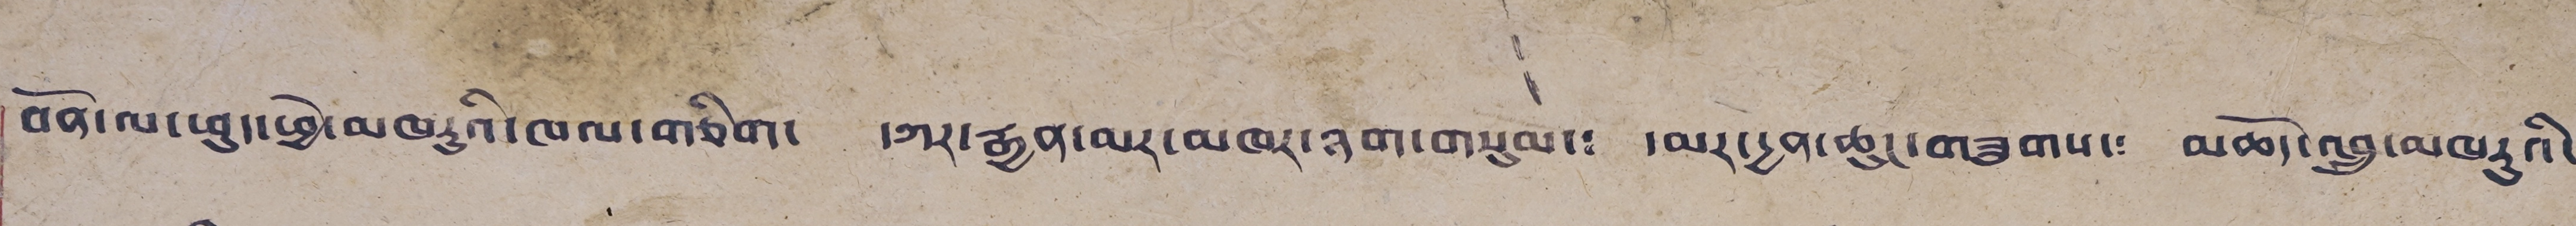བོན་ལ་ཕུད་ཕྱེ་མཁརུའི་ཁལ་གཅིག། དཀར་རྒྱན་མར་མཁར་ཉག་གསུམ་༴ དམར་དྱན་ཆུང་གཟུགས་༴ མཆོད་འབྲུ་མཁརུའི་
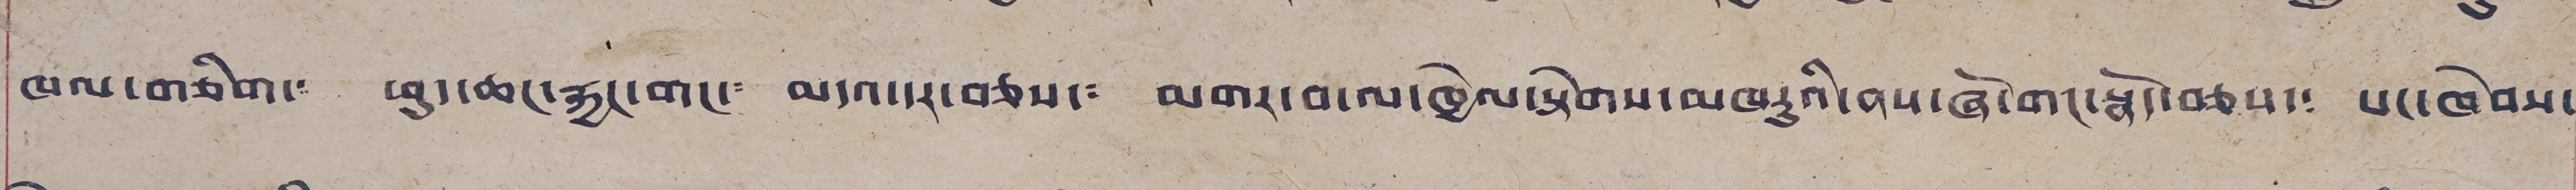ཁལ་གཅིག་༴ ཕུ་ཆང་རྐྱང་གང་༴ མདའ་དར་བཅས་༴ མགར་བ་ལ་ཁྱེལ་སྟེགས་མཁརུའི་ནས་ཞོ་གང་སྣོད་བཅས་༴ པང་ཁེབས་
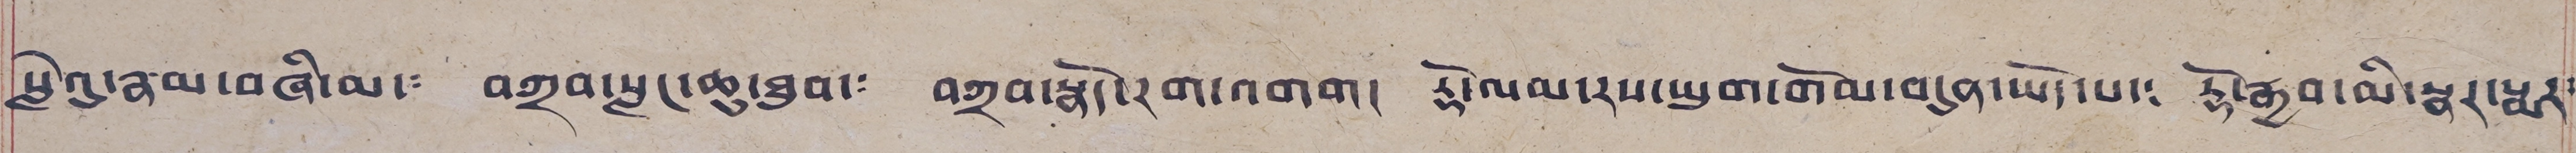སླེའུ་རྣམ་བཞི་མ་༴ བཀྲབ་སླང་ཆུ་ཐུབ་༴ བཀྲབ་སྣོད་རག་འགག། རྡོ་ལམ་རས་ཡུག་གོམ་བདུན་ཡོད་པ་༴ རྡོ་རྒྱབ་མི་སྣར་སྨར༴
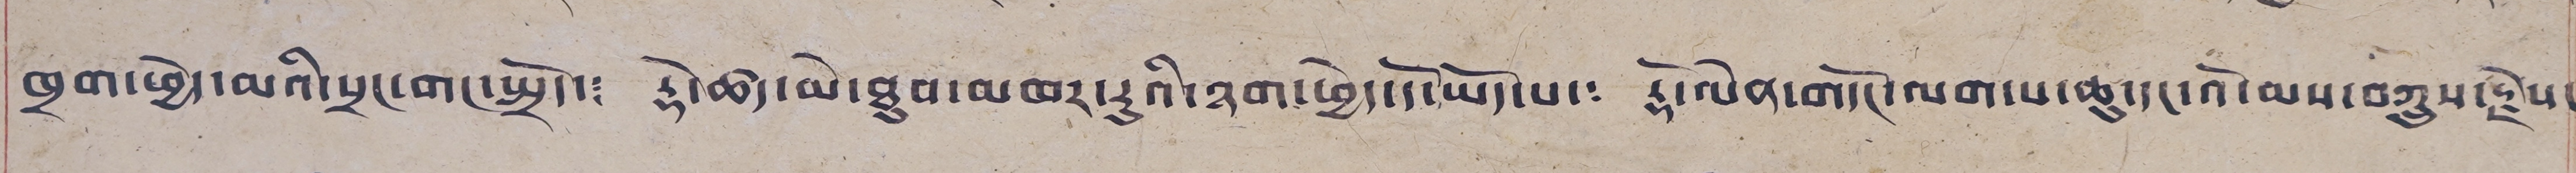ཁྲག་ཕྱེད་མའི་སྲང་གང་སྤྲོད་༴ རྡོ་ཚད་མེ་ཐུབ་མཁར་རུའི་ཉག་ཕྱེད་དོ་ཡོད་པ་༴ རྡོ་ལེན་གདོང་ལག་པ་ཆུ་དང་འོ་མས་བཀྲུས་རྗེས་
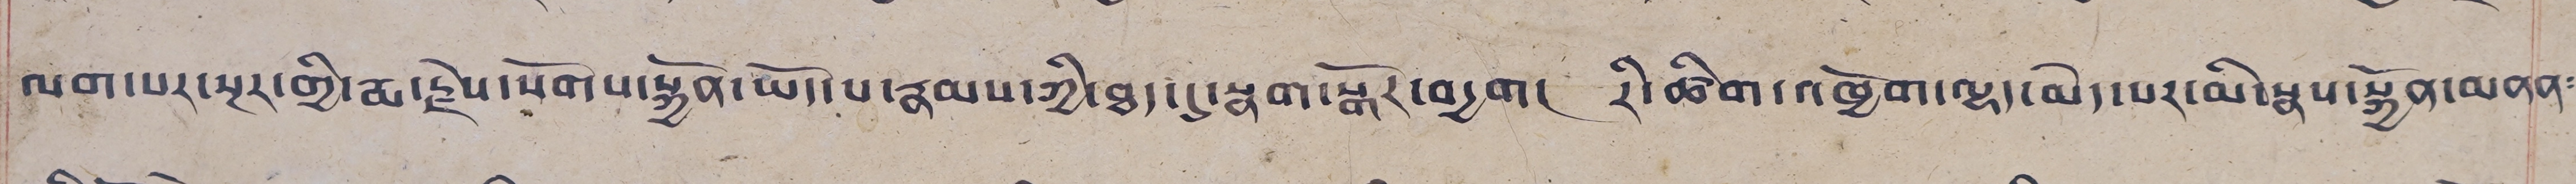ལག་པར་སྔར་གྱི་རྨ་རྗེས་སོགས་སྐྱོན་ཡོད་པ་རྣམས་ཀྱི་ཐད་དུ་སྣག་སྒོར་བདྱག། རི་ཚིག་འཁྱོག་ལྷ་མེད་པར་མི་སྣས་སྐྱོན་མནན༴
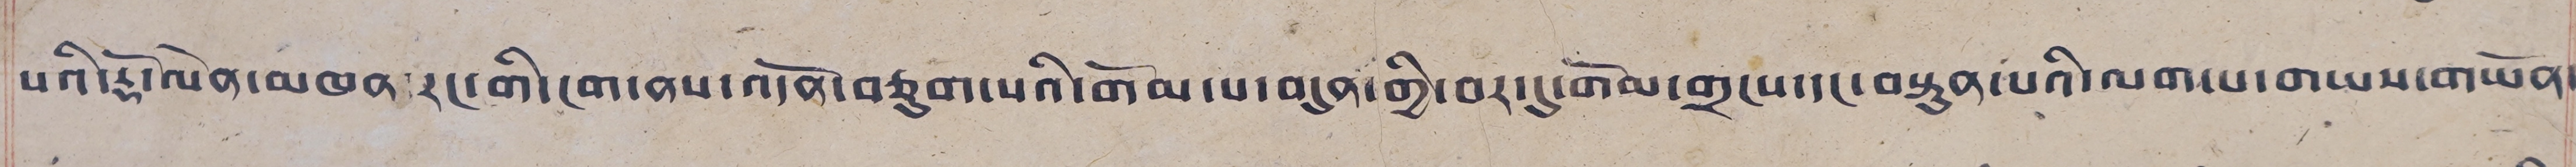པའི་རྡོ་ལེན་མཁན་རང་གི་ངག་ནས་འདོན་བཅུག་པའི་གོམ་པ་བདུན་གྱི་བར་དུ་གོམ་གྲངས་དང་བསྟུན་པའི་ལག་པ་གཡས་གཡོན་
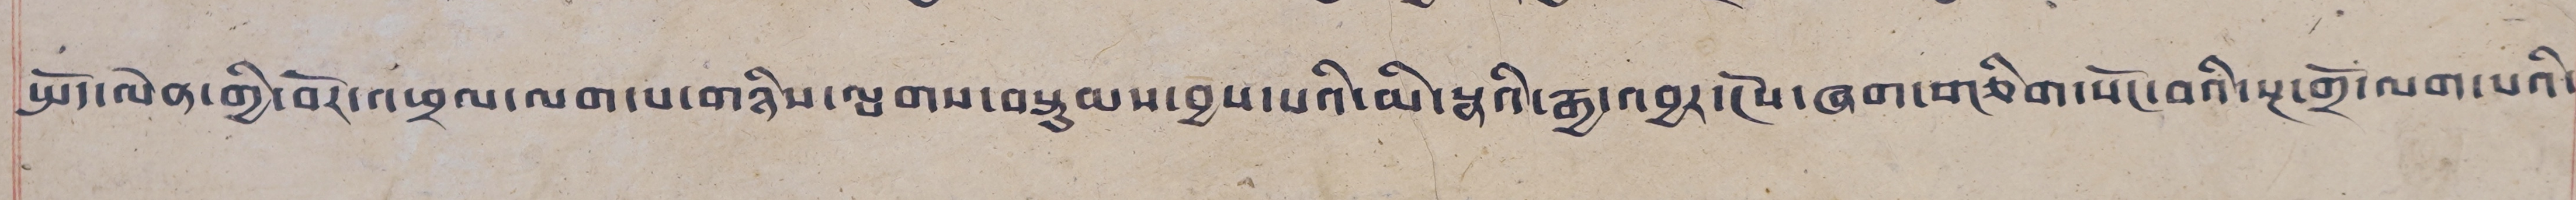སྤོད་ལེན་གྱི་བོར་འཕྲལ་ལག་པ་གཉིས་ལྤགས་བསྟུམས་བྱས་པའི་མི་སྣའི་རྒྱ་འབྱར་ངོས་ཞག་གཅིག་སོང་བའི་སྔ་གྲོ་ལག་པའི་
